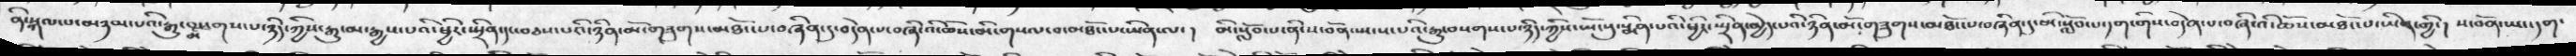ནི་སྐལ་པ་མཉམ་པའི་རྒྱུ་མ་བསགས་པ་ཉིད་ཀྱིས་རྒྱུ་མ་རྒྱས་པའི་ཕྱིར་སྤྲིན་དང་བཅས་པའི་ཉིན་མོ་གཟུགས་མཐོང་པ་བཞིན་དུ་བདེན་པ་བཞི་འི་ཆོས་མི་གསལ་བ་མཐོང་པ་ཡིན་ལ་།   མི་སློབ་པ་ནི་ས་བོན་སྤངས་པའི་རྒྱུ་བསགས་པ་ཉིད་ཀྱིས་ཡོངསུ་སྨིན་པའི་ཕྱིར་སྤྲིན་མྱེད་པའི་ཉིན་མི་གཟུགས་མཐོང་པ་བཞིན་དུ་མ་སློབ་པ་དག་གིས་བདེན་པ་བཞི་འི་ཆོས་མཐོང་པ་ཡིན་གྱི་།  ས་བོན་ཡང་དག་
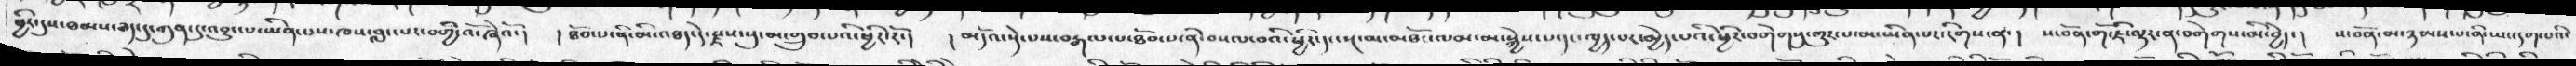ཕྱིར་དུས་ཐམས་ཅན་དུ་ཀུན་དུ་འབྱུང་པ་ཡིན་པས་ཁས་བླང་པར་བགྱི་འོ་ཞེའོ་།  ། ཐོབ་པ་ནི་མི་འཐད་དེ་རྗས་སུ་མ་གྲུབ་པའི་ཕྱིར་།  ། མདོའ་སྡེ་པས་བརྒལ་པ་ཐོབ་པ་ནི་བསལ་བའི་ཕྱིར་དང་སྔ་མ་མཐོང་ལམ་མ་སྐྱེས་པ་དང་ཁྱད་པར་མྱེད་པའི་ཕྱིར་བགེགསུ་གྱུར་པ་མ་ཡིན་པར་རིགས་ན་།   ས་བོན་གོ་ཇི་ལྟར་ན་བགེགས་མི་བྱེད་།  ས་བོན་མ་ཉམས་པ་ནི་ཡང་དག་པའི་
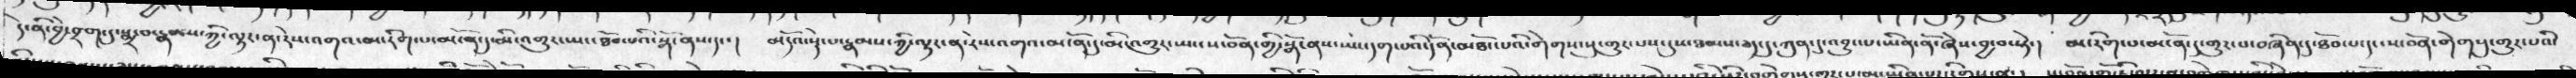དེ་ནི་བྱེ་བྲག་དུ་སྨྲ་བ་རྣམས་ཀྱི་ལྟར་ན་རེས་འགའ་མ་རིག་པ་མངོན་དུ་མི་འགྱུར་ཡང་ཐོབ་པའི་སྒོ་ནས་དང་།   མདོའ་སྡེ་པ་རྣམས་ཀྱི་ལྟར་ན་རེས་འགའ་མངོན་དུ་མི་འགྱུར་ཡང་ས་བོན་གྱི་སྒོ་ནས་ཡང་དག་པའི་དོན་མཐོང་པའི་གེགས་སུ་གྱུར་པས་དུས་ཐམས་ཅད་དུ་ཀུན་དུ་འབྱུང་པ་ཡིན་ནོ་ཞེས་བྱ་བ་སྟེ་།  མ་རིག་པ་མངོན་དུ་གྱུར་པ་བཞིན་དུ་ཐོབ་པ་དང་ས་བོན་གེགསུ་གྱུར་པའི་
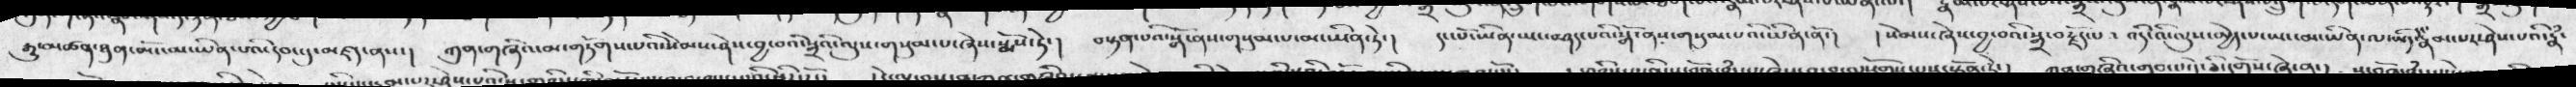རྒྱུ་མཚན་ཐུན་མོངས་མ་ཡིན་པའི་དབང་དུ་མཛད་ནས་།  ཀུན་གཞིའ་མ་གཏོགས་པའི་སེམས་ཤེས་བྱ་བའི་སྒྲའི་ལུས་གསུམ་པ་ཞེས་སྨོས་ཏེ་།  བསྟན་པའི་སྒོ་ནས་གསུམ་པ་མ་ཡིན་ཏེ་།  དང་པོ་ཡིན་ཡང་བཤད་པའི་སྒོ་ནས་གསུམ་པའི་ཡིན་ནོ་།  ། སེམས་ཞེས་བྱ་བའི་སྒྲ་བརྗོད་པ་འདི་འི་ལུས་མྱེད་པ་ཡང་མ་ཡིན་ལ་ཡིད་དང་རྣམ་པར་ཤེས་པའི་རྣཾ་
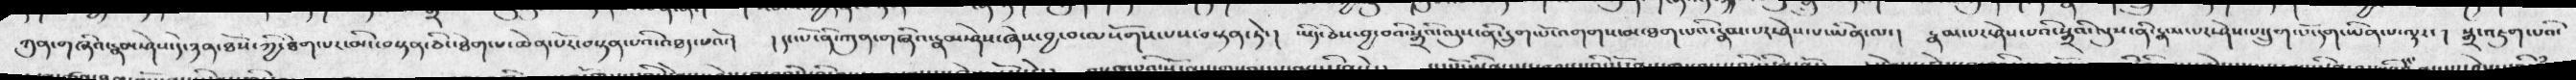ཀུན་གཞིའ་རྣམ་ཤེས་དེ་ཉན་ཐོས་ཀྱི་ཐེག་པར་མི་བསྟན་ཅིང་ཐེག་པ་ཆེན་པོ་བསྟན་པའི་འཐད་པའོ་།  ། དང་པོ་ནི་ཀུན་གཞིའ་རྣམ་ཤེས་ཞེས་བྱ་བ་ལསོགས་པས་བསྟན་ཏེ་།  ཡིད་ཅེས་བྱ་བའི་སྒྲའི་ལུས་ནི་དྲུག་པོ་འགགས་མ་ཐག་པའི་རྣམ་པར་ཤེས་པ་ཡིན་ལ་།  རྣམ་པར་ཤེས་པའི་སྒྲའི་ལུས་ནི་རྣམ་པར་ཤེས་པ་དྲུག་པོ་དག་ཡིན་པ་ལྟར་།  སྒྲ་འཇུག་པའི་
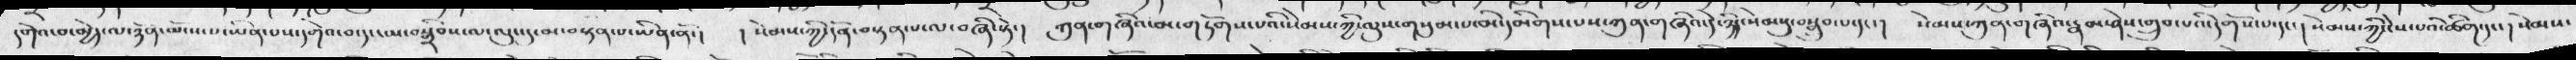དགེའ་བ་མྱེད་ལ་ཉོན་མོངས་པ་ཡིན་པས་དགེའ་བ་དང་མ་བསྒྲིབས་ལ་ལུང་དུ་མ་བསྟན་པ་ཡིན་ནོ་།   ། སེམས་ཀྱི་དོན་བསྟན་པ་ལ་བཞི་སྟེ་།  ཀུན་གཞིའ་མ་གཏོགས་པའི་སེམས་ཀྱི་ལུས་གསུམ་པ་མི་དམིགས་པས་ཀུན་གཞིའ་དེ་ཉིད་སེམསུ་བསྒྲུབ་པ་དང་།  སེམས་ཀུན་གཞིའ་རྣམ་ཤེས་གྲུབ་པའི་དགོས་པ་དང་།   སེམས་ཀྱི་ངེས་པའི་ཚིག་དང་།  སེམས་
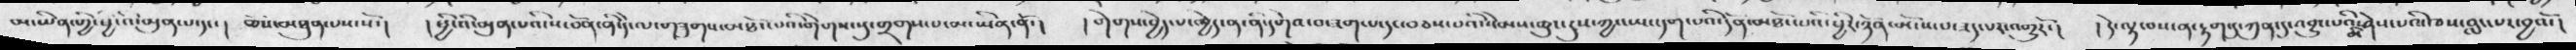མ་ཡིན་གྱི་ཕྱི་འི་མུན་པ་དང་།  ཆོས་མཐུན་པས་སོ་།  ། ཕྱི་འི་མུན་པའི་ས་བོན་ནི་དེ་ལ་གཟུགས་མཐོང་བའི་གེགས་སུ་གྲགས་པ་མ་ཡིན་ནོ་།  ། གེགས་བྱེད་པ་ཁྱེད་ན་ནི་དགེའ་བ་ཟག་པ་དང་བཅས་པའི་སེམས་ཆུང་ངུས་ཀྱང་ཡང་དག་པའི་དོན་མཐོང་པའི་ཕྱིར་ཉོན་མོངས་པ་ཟད་པར་འགྱུརོ་།  ། དེ་ལྟ་བས་ན་རྟག་དུ་ཀུན་དུ་འབྱུང་པའི་མི་ཤེས་པའི་ཁས་བླང་པར་བྱའོ་།
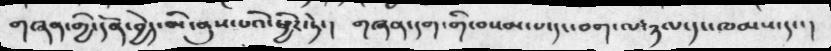གཞན་གྱི་དོན་བྱེད་མི་ནུས་པའི་ཕྱིར་ཏེ་།   གཞན་དག་གི་བསམ་པ་དང་བག་ལ་ཉལ་དང་ཁམས་དང་།
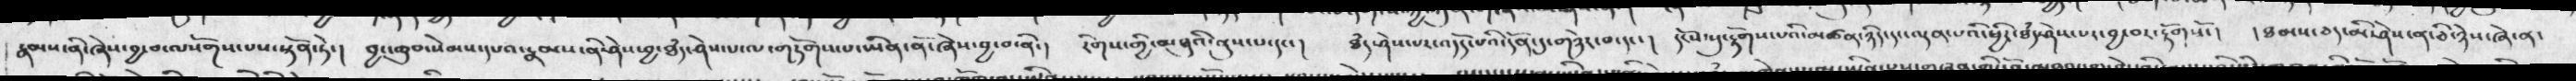རྣམས་ནི་ཞེས་བྱ་བ་ལསོགས་པས་སྟོན་ཏེ་།   བྱང་ཆུབ་སེམས་དཔའ་རྣམས་ནི་ཤེས་བྱ་ཐཾད་ཤེས་པ་ལ་གཏོགས་པ་ལ་གཏོགས་པ་ཡིན་ནོ་ཞེས་བྱ་བ་ནི་།   རིགས་གྱི་མཐུའི་ནུས་པ་དང་།    ཐཾད་ཤེས་པར་འདོད་པའི་དོན་དུ་གཉེར་བ་དང་། དངོས་སུ་རྟོགས་པའི་མཚན་ཉིད་དང་ལྡན་པའི་ཕྱིར་ཐཾད་ཤེས་པར་བྱ་བར་རྟོགསོ་།   ། ཐམས་ཅད་མི་ཤེས་ན་ཅི་ཉེས་ཞེ་ན་
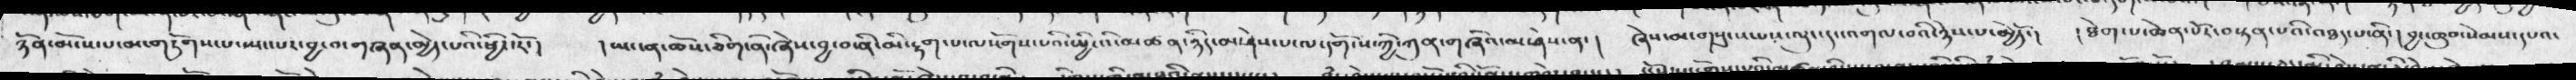ཉོན་མོངས་པ་མ་གཏོགས་པ་སྤང་བྱ་གཞན་མྱེད་པའི་ཕྱིར་རོ་།   ། ཡང་ན་ཆོས་ཅིག་ནི་ཞེས་བྱ་བ་ནི་མི་རྟག་པ་ལསོགས་པའི་ཡྱི་འི་མཚན་ཉིད་མ་ཤེས་པ་དགོངས་ཀྱི་ཀུན་གཞིའ་མ་ཤེས་ན་།   ཞེས་མ་གསུངས་ཡང་ལུང་དང་འགལ་བའི་ཉེས་པ་མྱེདོ་།   ། ཐེག་པ་ཆེན་པོར་བསྟན་པའི་འཐད་པ་ནི་།  བྱང་ཆུབ་སེམས་དཔའ་
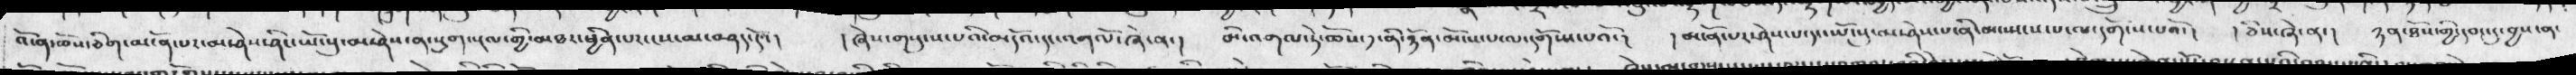འོ་ན་ཆོས་ཅིག་མངོན་པར་མ་ཤེས་ཤིང་ཡོངསུ་མ་ཤེས་ན་སྡུག་སྔལལ་གྱི་མཐར་ཕྱིན་པར་ངས་མ་བཤད་དོའ་།   །  ཞེས་གསུངས་པའི་མདོའ་དང་འགལོ་ཞེ་ན་།   མི་འགལ་ཏེ་ཆོས་༡་ནི་ཉོན་མོངས་པ་ལ་དགོངས་པའོ་།  ། མངོན་པར་ཤེས་པ་དང་ཡོངསུ་མ་ཤེས་པ་ནི་མ་སྤངས་པ་ལ་དགོངས་པའོ་།  ། ཅིས་ཞེ་ན་།  ཉན་ཐོས་གྱི་དབང་དུ་བྱས་ན་
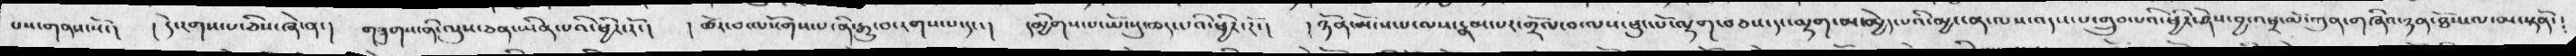པས་གནས་སོ་།    ། དེ་རགས་པ་ཅིས་ཞེ་ན་།   གཟུགས་ནི་ལུས་ཅན་ཡིན་པའི་ཕྱིར་རོ་།   ། ཚོར་བ་ལསོགས་པ་ནི་རྒྱུ་བ་རགས་པ་དང་།   དམྱིགས་པ་ཡོངསུ་ཆད་པའི་ཕྱིར་རོ་།    ། ཉོན་མོངས་པ་ལས་རྣམ་པར་གྲོལ་བ་ལལས་ཕུང་པོ་ལྷག་མ་མྱེད་པའི་མྱ་ངན་ལས་འདས་པ་གྲུབ་པའི་ཕྱིར་ཤེས་བྱ་འཕྲ་མོ་ཀུན་གཞིའ་ཉན་ཐོས་ལ་མ་སྟནོ་
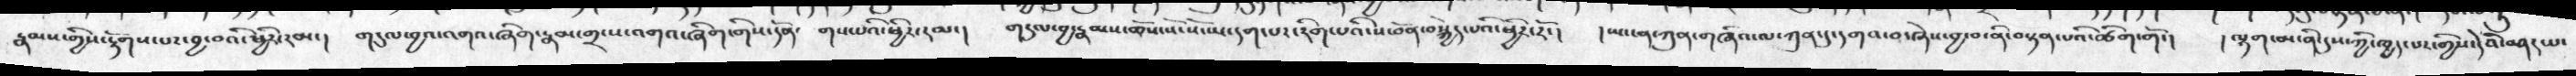རྣམས་གྱིས་རྟོགས་པར་བྱ་བའི་ཕྱིར་རམ་།   གདུལ་བྱའ་འགའ་ཞིག་རྣམ་གྲངས་འགའ་ཞིག་གིས་དོན་  གས་པའི་ཕྱིར་རམ་།  གདུལ་བྱ་རྣམས་ཆོས་སོ་སོ་ཡང་དག་པར་རིག་པའི་ས་བོན་བསྐྱེད་པའི་ཕྱིར་རོ་།  །ཡང་ན་ཀུན་གཞིའ་ལ་ཀུན་དུ་དགའ་བ་ཞེས་བྱ་བ་ནི་བསྟན་པའི་ཚིག་གོ་།  ། ལྷག་མ་ནི་དུས་ཀྱི་ཁྱད་པར་གྱིས་དེའི་བཤད་པ་
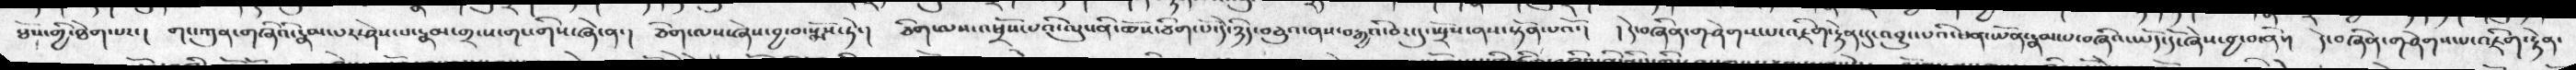ཐོས་གྱི་ཐེག་པར་།  གང་ཀུན་གཞིའི་རྣམ་པར་ཤེས་པ་རྣམ་གྲངས་གང་གིས་ཞེ་ན་།  ཅིག་ལས་ཞེས་བྱ་བ་སྨོས་ཏེ་།  ཅིག་ལས་འཕྲོས་པའི་ལུང་ནི་ཆོས་ཅིག་པོ་དེ་ཉིད་བཅུའ་ནས་བརྒྱའི་བར་དུ་སྤྲོས་ནས་སྟོན་པའོ་།  ། དེ་བཞིན་གཤེགས་པ་འཇིག་རྟེན་དུ་འབྱུང་པའི་ཕན་ཡོན་རྣམ་པ་བཞིའ་ཡོད་དོ་ཞེས་བྱ་བ་ནི་།  དེ་བཞིན་གཤེགས་པ་འཇིག་རྟེན་
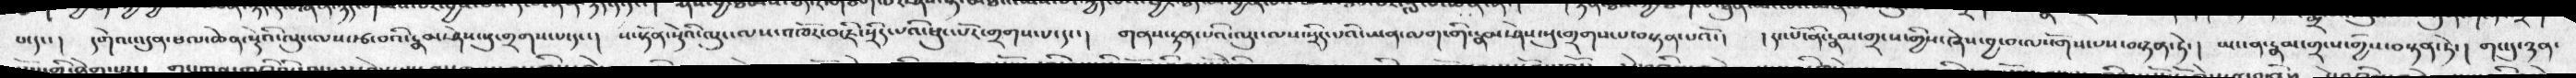པ་དང་།  དགེའ་འདུན་ཕལ་ཆེན་སྡེའི་ལུང་ལས་རྩ་བའི་རྣམ་ཤེས་སུ་གྲགས་པདང་།  ས་སྟོན་སྡེའི་ལུང་ལས་འཁོར་བ་ཇི་སྲིད་པའི་ཕུང་པར་གྲགས་པ་དང་།   གནས་རྟན་པའི་ལུང་ལས་སྲིད་པའི་ཡན་ལག་གི་རྣམ་ཤེས་སུ་གྲགས་པ་བསྟན་པའོ་།  ། དང་པོ་ནི་རྣམ་གྲངས་གྱིས་ཞེས་་བྱ་བ་ལསོགས་པས་བསྟན་ཏེ་།  ཡང་ན་རྣམ་གྲངས་གྱིས་བསྟན་ཏེ་།   གང་དུ་ཉན་
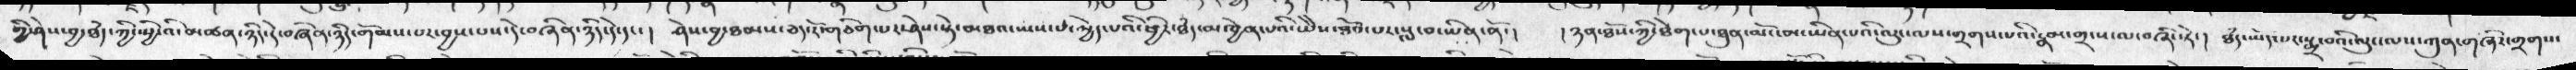གྱི་ཤེས་བྱ་ཐཾད་ཀྱི་སྤྱི་འི་མཚན་ཉིད་དེ་བཞིན་ཉིད་གོམས་པར་བྱས་པས་དེ་བཞིན་ཉིད་དེ་དང་།   ཤེས་བྱ་ཐམས་ཅད་རོ་གཅིག་པར་ཤེས་སྟེ་མཐས་ཡས་པ་མྱེད་པའི་ཕྱིར་ཐཾད་མཁྱེན་པའི་ཡེེས་ཐོབ་པར་སླ་བ་ཡིན་ནོ་།  ། ཉན་ཐོས་ཀྱི་ཐེག་པ་ཐུན་མོང་མ་ཡིན་པའི་ལུང་ལས་གྲགས་པའི་རྣམ་གྲངས་ལ་བཞི་སྟེ་།  ཐཾད་ཡོད་པར་སྨྲ་བའི་ལུང་ལས་ཀུན་གཞིར་གྲགས་
